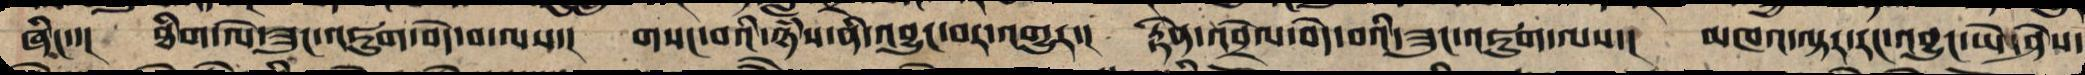ཞིང་་། ཐིག་ལེ་ཟུང་འཇུག་བདེ་བ་ལས་། གསང་བའི་ཉཾས་ནི་འབྱུང་བར་འགྱུར་། རྟེན་འབྲེལ་བདེ་བའི་ཟུང་འཇུག་ལས་། མཁའ་ལྟར་རང་བྱུང་ཡེ་ཤེས་
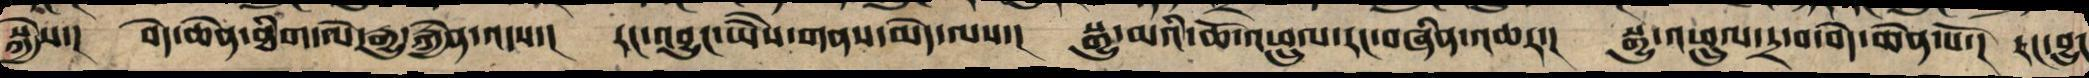སྐྱེས་། བདེ་ཆེན་ཐིག་ལེ་རྒྱུ་རྐྱེན་འདས་། རང་བྱུང་ཡཻས་གནས་མེད་ལས་། སྒྱུ་མའི་ཆོ་འཕྲུལ་རང་བཞིན་འཆར་། སྒྱུ་འཕྲུལ་དྲ་བ་བདེ་ཆེན་པོ་། རང་བྱུང་
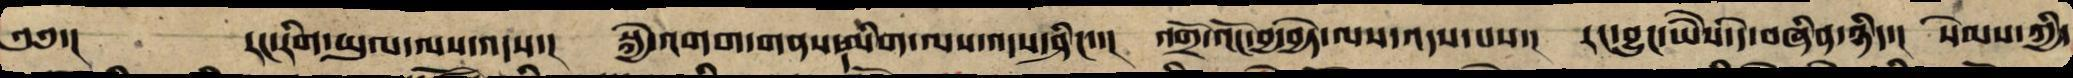༄༅་། རང་རིག་ཡུལ་ལས་འདས་། སྐྱེ་འགག་གནས་དམིག་ལས་འདས་ཤིང་་། འགྲོ་འོང་བྱ་བྱེད་ལས་འདས་པས་། རང་བྱུང་ཡཻས་དེ་བཞིན་ཉིད་། སེམས་ཀྱི་
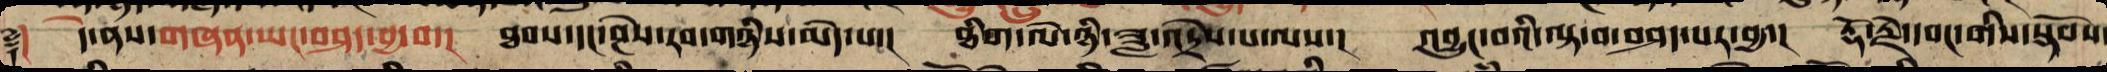༈། །དེ་ནས་གཞན་ཡང་བཤད་བྱ་བ་། ཐབས་དང་ཤེས་རབ་གཉིས་མེད་པ་། ཐིག་ལེ་ཉི་ཟླ་འདྲེས་པ་ལས་། འབྱུང་བའི་བལྟ་བ་བཤད་པར་བྱ་། རྡོ་རྗེ་དབང་གི་སྟོབས་
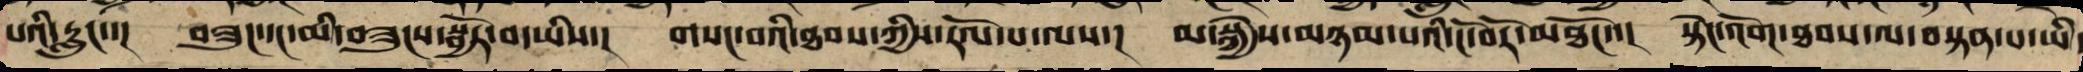པའི་རླུང་་། བཟུང་དང་མི་བཟུངས་སྦྱོར་བ་ཡིས་། གསང་བའི་ཐབས་ཀྱི་རོལ་པ་ལས་། མ་སྐྱེས་མཉམ་པའི་ངོ་བོར་མཐོང་་། སྟེང་འོག་ཐབས་ལ་བསྟན་པ་ཡི་
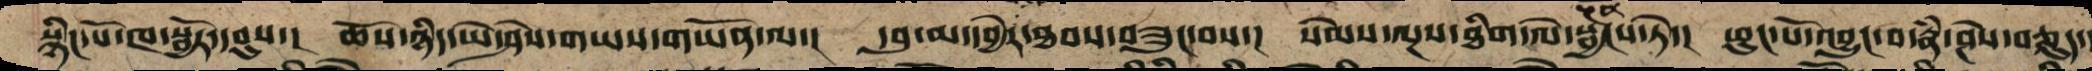སྙིང་པོ་ཁ་སྦྱོར་དབུས་། ཆོས་ཉིད་ཡེ་ཤེས་གཡས་གཡོན་ལ་། དབུ་མ་དབྱེར་མེད་ཐབས་བཟུང་བས་། སེམས་ལྔས་ཐིག་ལེ་མངོན་སྦྱངས་ཏེ་། ཕུང་པོ་འབྱུང་བ་རྣཾ་ཤེས་བཅུད་།
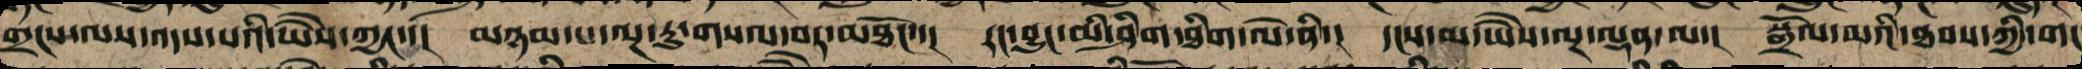གྲངས་ལས་འདས་པའི་ཡཻས་ཀྱང་་། མཉམ་པ་ལྔ་རུ་གསལ་བར་མཐོང་་། རང་བྱུང་མི་ཤིག་ཐིག་ལེ་ནི་། དངས་མ་ཡཻས་ལྔ་ལྡན་ལ་། སྒྲོན་མའི་ཐབས་ཀྱིས་གང
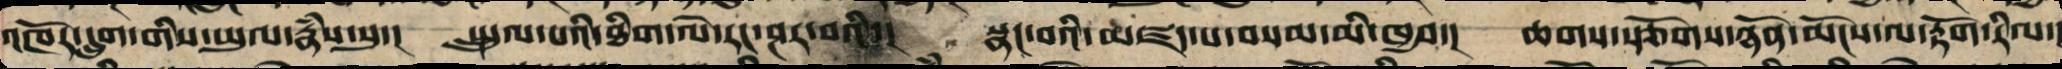འཁོར་དྲུག་གིས་ཡུལ་རྣཾས་སུ་།  སྤྲུལ་པའི་ཐིག་ལེ་རང་ཤར་བའི་།  སྣང་བའི་མཛད་པ་བསམ་མི་ཁྱབ་།  ཆགས་རྩོགས་ཉོན་མོངས་ལ་རྟོག་རིལ་།
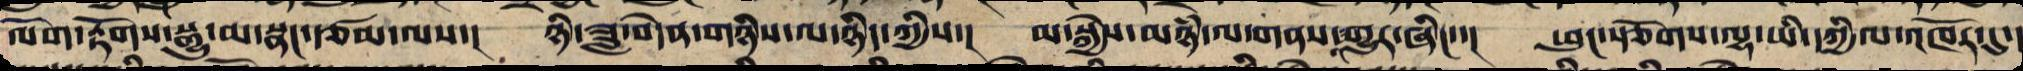ལོག་རྟོགས་སྒྱུ་མ་སྣང་ཙམ་ལས་།  ཉི་ཟླ་བདེན་གཉིས་ལ་ཉིད་ཀྱིས་།  མ་སྐྱེས་མཉཾ་ལ་གནས་འགྱུར་ཞིང་་།  ཕུང་རྩོགས་ལྷ་ཡི་དཀྱིལ་འཁོར་དུ་།
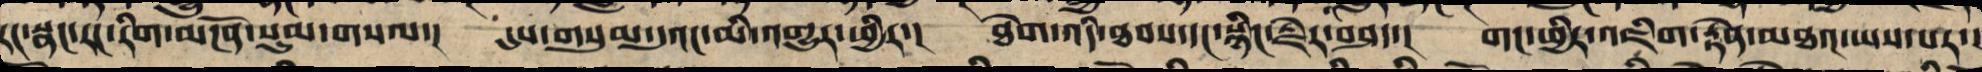རང་སྣང་རང་རིག་མངོན་སུམ་གསལ་། དུས་གསུམ་དུའང་མི་འགྱུར་ཕྱིར་། ཐེག་འདི་ཐབས་དང་སྙིང་རྗེར་བཤད་། གང་ཕྱིར་འཇིག་རྟེན་མཐའ་ཡས་པར་།
